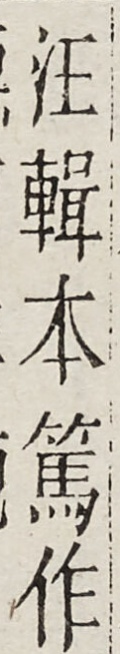汪輯本篤作
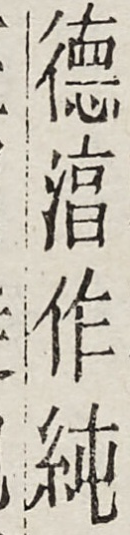德湻作純
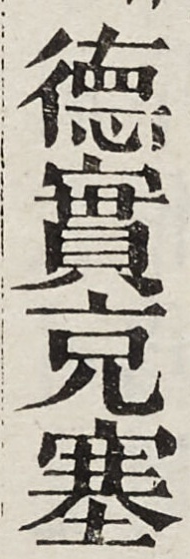德實克塞
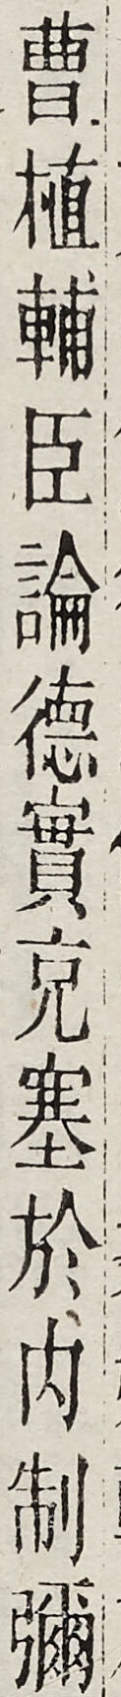曹植輔臣論德實克塞於內制彌
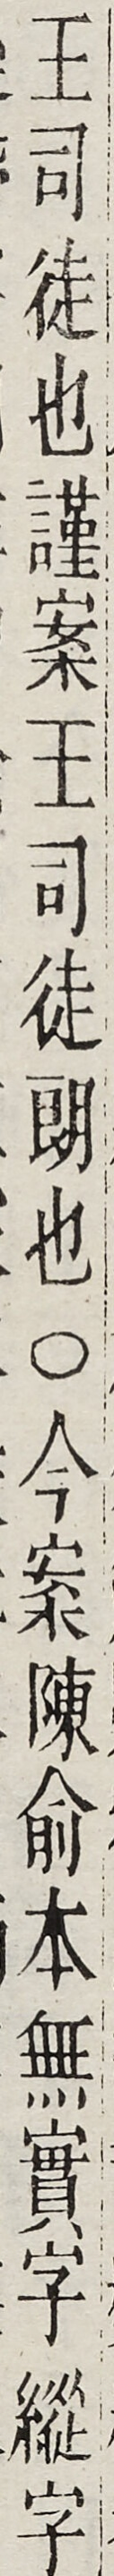正司徒也謹案王司徒朗也○今案陳俞本無實字蹤字
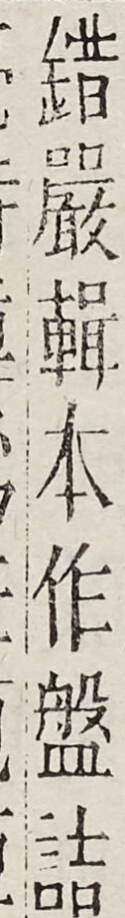錯嚴輯本作盤詰
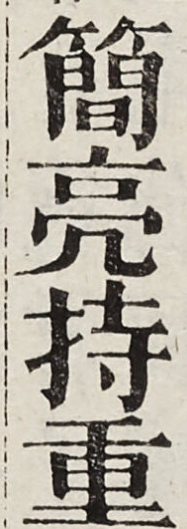簡亮持重
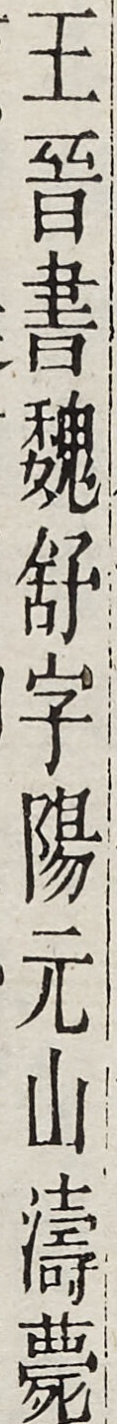王晉書魏舒字陽元山濤薨
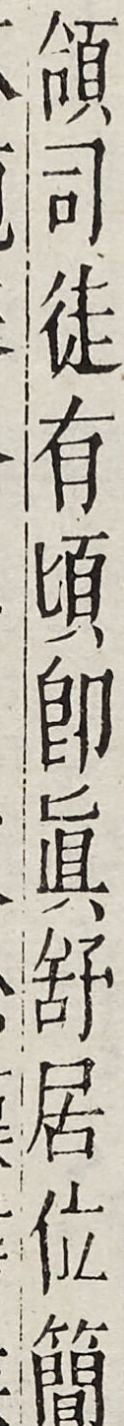領司徒有頃即真舒居位簡
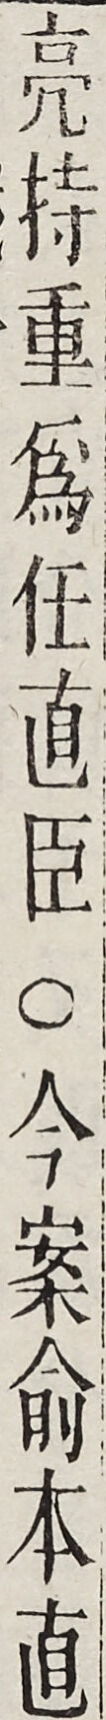亮持重為任直臣○今案俞本直
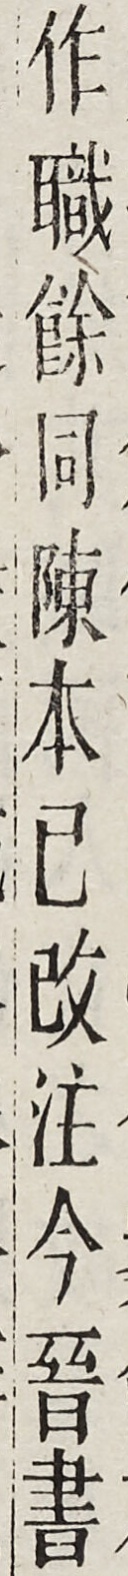作職餘同陳本已改注今晉書
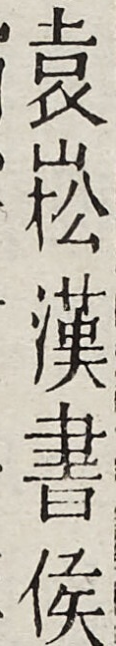袁崧漢書候
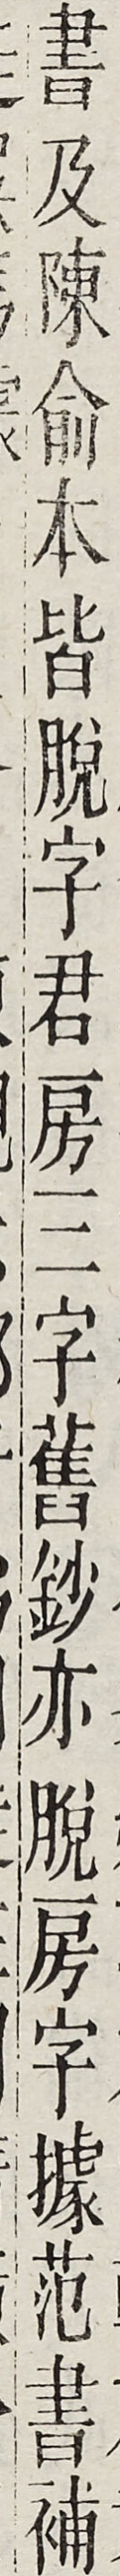書及陳俞本皆脫字君房三字舊鈔亦脫房字據範書補
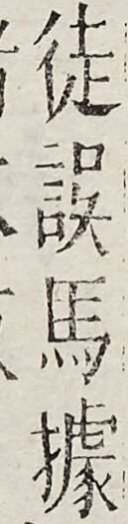徒誤為據
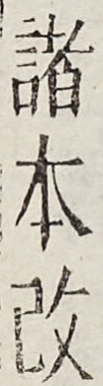諸本改
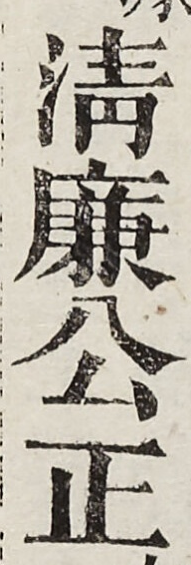清廉公正
